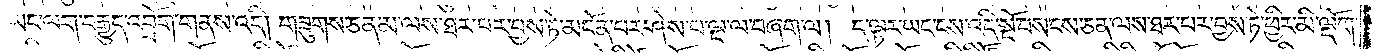ཡང་ལག་བརྒྱུད་འབྲོག་གནས་འདི། གཟུགས་ཅན་མ་ལས་ཐར་པར་བྱས་ཏེ་མངོན་པར་ཤེས་པ་ལྔ་ལ་བཞག་ལ། ད་ལྟར་ཡང་ངས་འདི་སྔོ་བསངས་ཅན་ལས་ཐར་པར་བྱས་ཏེ་ཕྱིར་མི་ལྡོག་
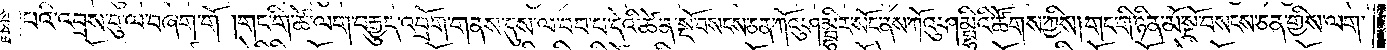པའི་འབྲས་བུ་ལ་བཞག་གོ །གང་གི་ཚེ་ལག་བརྒྱུད་འབྲོག་གནས་དུས་ལ་བབ་པ་དེའི་ཚེ་ན་སྔོ་བསངས་ཅན་ཀོའུ་ཤམྦྷིར་སོང་ནས་ཀོའུ་ཤམྦྷིའི་ཚོགས་ཀྱིས། གང་གི་ཉིན་མོ་སྔོ་བསངས་ཅན་གྱིས་ལག་
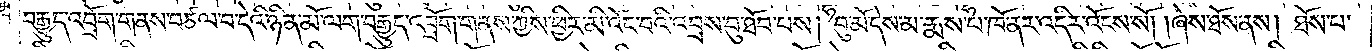བརྒྱུད་འབྲོག་གནས་བཙལ་བ་དེའི་ཉིན་མོ་ལག་བརྒྱུད་འབྲོག་གནས་ཀྱིས་ཕྱིར་མི་འོང་བའི་འབྲས་བུ་ཐོབ་པས། བུ་མོ་དེས་མ་རྨས་པ་ཁོ་ནར་འདིར་འོངས་སོ། །ཞེས་ཐོས་ནས། ཐོས་པ་
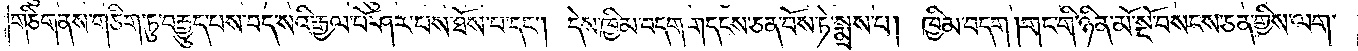གཅིག་ནས་གཅིག་ཏུ་བརྒྱུད་པས་བད་སའི་རྒྱལ་པོ་ཤར་པས་ཐོས་པ་དང༌། དེས་ཁྱིམ་བདག་གདངས་ཅན་པོས་ཏེ་སྨྲས་པ། ཁྱིམ་བདག །གང་གི་ཉིན་མོ་སྔོ་བསངས་ཅན་གྱིས་ལག་
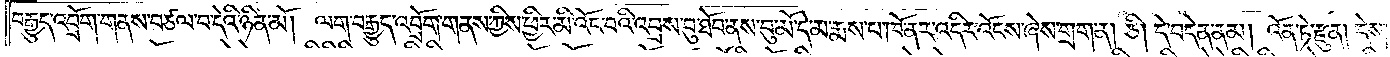བརྒྱུད་འབྲོག་གནས་བཙལ་བ་དེའི་ཉིན་མོ། ལག་བརྒྱུད་འབྲོག་གནས་ཀྱིས་ཕྱིར་མི་འོང་བའི་འབྲས་བུ་ཐོབ་ནས་བུ་མོ་དེ་མ་རྨས་པ་ཁོ་ནར་འདིར་འོངས་ཞེས་གྲག་ན། ཅི། དེ་བདེན་ནམ། འོན་ཏེ་རྫུན། དེས་
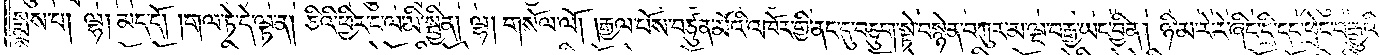སྨྲས་པ། ལྷ། མད་དོ། །གལ་ཏེ་དེ་ལྟ་ན། ཅིའི་ཕྱིར་ང་ལ་མི་སྦྱིན། ལྷ། གསོལ་ལོ། །རྒྱལ་པོས་བཙུན་མོའི་འཁོར་གྱི་ནང་དུ་བཅུག་སྟེ་བསྙེན་བཀུར་མ་ལྔ་བརྒྱ་ཡང་བྱིན། ཉི་མ་རེ་རེ་ཞིང་དྲི་དང་ཕྲེང་བ་རྒྱུའི་
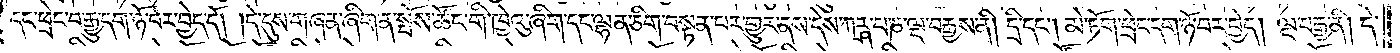དང་ཕྲེང་བ་རྒྱུ་དག་ཉོ་བར་བྱེད་དོ། །དེ་དུས་གཞན་ཞིག་ན་སྤོས་ཚོང་གི་ཁྱེའུ་ཞིག་དང་ལྷན་ཅིག་བསྟན་པར་གྱུར་ནས་དེས་ཀཪྴ་པ་ཎ་ལྔ་བརྒྱས་ནི། དྲི་དང༌། མེ་ཏོག་ཕྲེང་དག་ཉོ་བར་བྱེད། ལྔ་བརྒྱ་ནི། དེ་
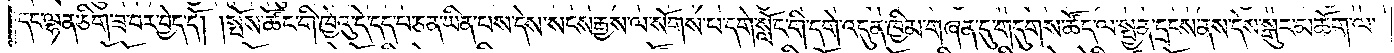དང་ལྷན་ཅིག་ཟ་བར་བྱེད་དོ། །སྤོས་ཚོང་གི་ཁྱེའུ་དེ་དད་པ་ཅན་ཡིན་པས་དེས་སངས་རྒྱས་ལ་སོགས་པ་དགེ་སློང་གི་དགེ་འདུན་ཁྱིམ་གཞན་དུ་གདུགས་ཚོད་ལ་སྤྱན་དྲངས་ནས་དེས་སྒུར་མཆོག་ལ་
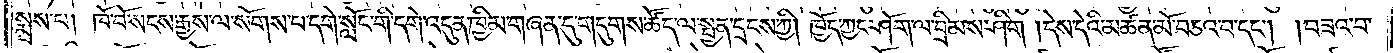སྨྲས་པ། ཁོ་བོ་སངས་རྒྱས་ལ་སོགས་པ་དགེ་སློང་གི་དགེ་འདུན་ཁྱིམ་གཞན་དུ་གདུགས་ཚོད་ལ་སྤྱན་དྲངས་ཀྱི། ཁྱོད་ཀྱང་ཤོག་ལ་བྲིམས་ཤིག །དེས་དེའི་མཚན་མོ་བཅའ་བ་དང༌། །བཟའ་བ་
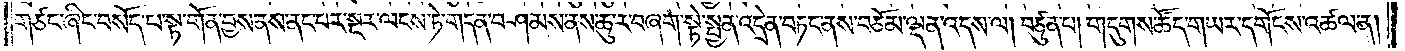གཙང་ཞིང་བསོད་པ་སྟ་གོན་བྱས་ནས་ནང་པར་སྔར་ལངས་ཏེ་གདན་བཤམས་ནས་ཆུ་ར་བཞག་སྟེ་སྤྱན་འདྲེན་བཏང་ནས་བཅོམ་ལྡན་འདས་ལ། བཙུན་པ། གདུགས་ཚོད་གཡར་དགོངས་འཚལ་ན།
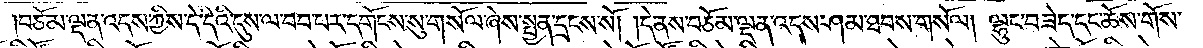བཅོམ་ལྡན་འདས་ཀྱིས་དེ་དེའི་དུས་ལ་བབ་པར་དགོངས་སུ་གསོལ་ཞེས་སྤྱན་དྲངས་སོ། །དེ་ནས་བཅོམ་ལྡན་འདས་ཤམ་ཐབས་གསོལ། ལྷུང་བཟེད་དང་ཆོས་གོས་
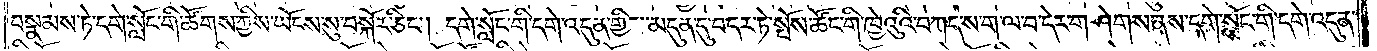བསྣམས་ཏེ་དགེ་སློང་གི་ཚོགས་ཀྱིས་ཡོངས་སུ་བསྐོར་ཅིང༌། དགེ་སློང་གི་དགེ་འདུན་གྱི་མདུན་དུ་བདར་ཏེ་སྤོས་ཚོང་གི་ཁྱེའུའི་བཀད་ས་ག་ལ་བ་དེར་གཤེགས་ནས་དགེ་སློང་གི་དགེ་འདུན་
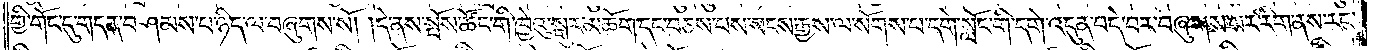གྱི་གོང་དུ་གདན་བཤམས་པ་ཉིད་ལ་བཞུགས་སོ། །དེ་ནས་སྤོས་ཚོང་གི་ཁྱེའུ་སྒུར་མཆོག་དང་བཅས་པས་སངས་རྒྱས་ལ་སོགས་པ་དགེ་སློང་གི་དགེ་འདུན་བདེ་བར་བཞུགས་པར་རིག་ནས་རང་
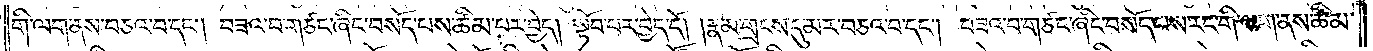གི་ལག་ནས་བཅའ་བ་དང༌། བཟའ་བ་གཙང་ཞིང་བསོད་པས་ཚིམ་པར་བྱེད། སྟོབ་པར་བྱེད་དོ། །རྣམ་གྲངས་དུ་མར་བཅའ་བ་དང༌། བཟའ་བ་གཙང་ཞིང་བསོད་པས་རང་གི་ལག་ནས་ཚིམ་
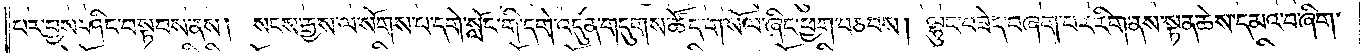པར་བྱས་ཤིང་བསྟབས་ནས། སངས་རྒྱས་ལ་སོགས་པ་དགེ་སློང་གི་དགེ་འདུན་གདུགས་ཚོད་གསོལ་ཞིང་ཕྱག་བཅབས། ལྷུང་བཟེད་བཞག་པར་རིག་ནས་སྟན་ཆེས་དམའ་བ་ཞིག་
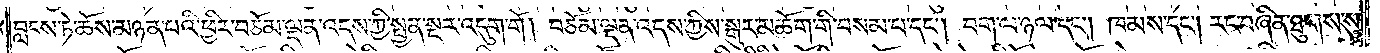བླངས་ཏེ་ཆོས་མཉན་པའི་ཕྱིར་བཅོམ་ལྡན་འདས་ཀྱི་སྤྱན་སྔར་འདུག་གོ། བཅོམ་ལྡན་འདས་ཀྱིས་སྒུར་མཆོག་གི་བསམ་པ་དང༌། བག་ལ་ཉལ་དང༌། ཁམས་དང༌། རང་བཞིན་ཐུགས་སུ་
